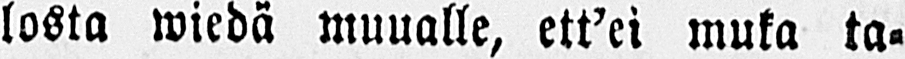losta wiedä muualle, ett’ei muka ta-
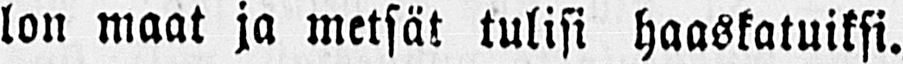lon maat ja metsät tulisi haaskatuiksi.
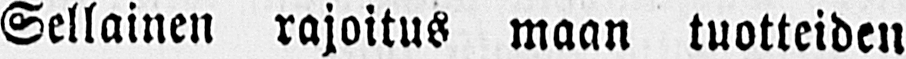Sellainen rajoitus maan tuotteiden
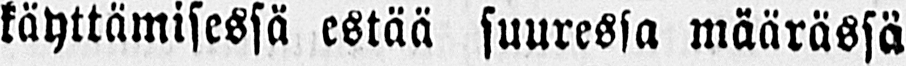käyttämisessä estää suuressa määrässä
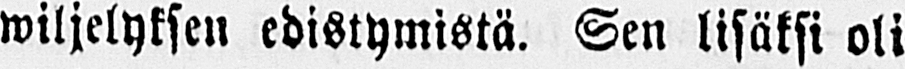wiljelyksen edistymistä. Sen lisäksi oli
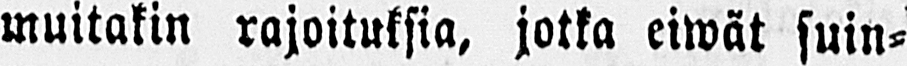muitakin rajoituksia, jotka eiwät suin-
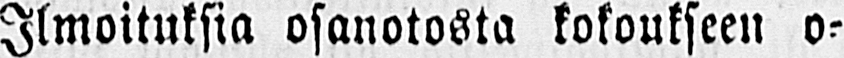Ilmoituksia osanotosta kokoukseen o-
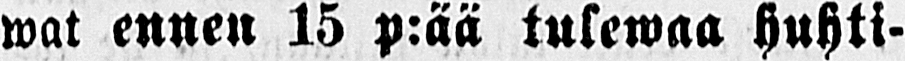wat ennen 15 p:ää tulewaa huhti-
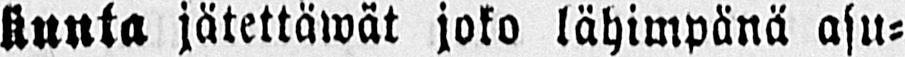kunta jätettäwät joko lähimpänä asu-
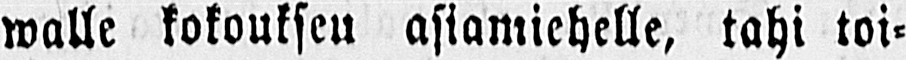walle kokoukseu asiamiehelle, tahi toi-
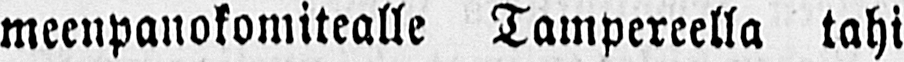meenpanokomitealle Tampereella tahi
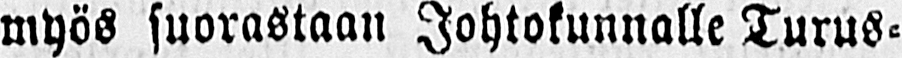myös suorastaan Johtokunnalle Turus-
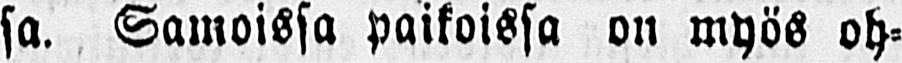sa. Samoissa paikoissa on myös oh-
